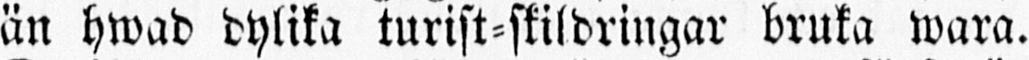än hwad dylika turist-skildringar bruka wara.
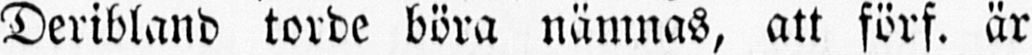Deribland torde böra nämnas, att förf. är
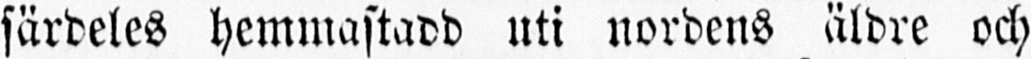särdeles hemmastadd uti nordens äldre och
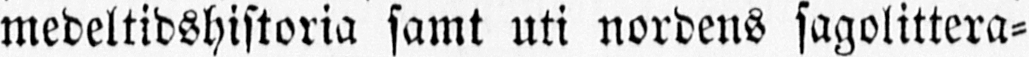medeltidshistoria samt uti nordens sagolittera-
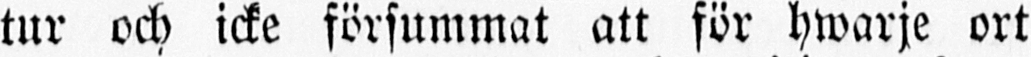tur och icke försummat att för hwarje ort
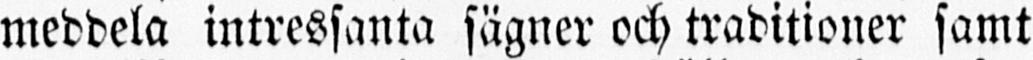meddela intressanta sägner och traditioner samt
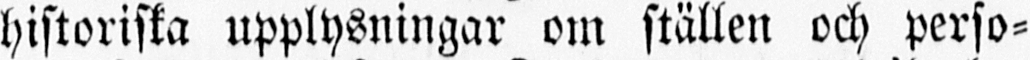historiska upplysningar om ställen och perso-
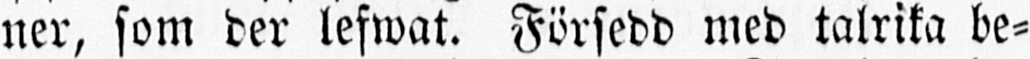ner, som der lefwat. Försedd med talrika be-
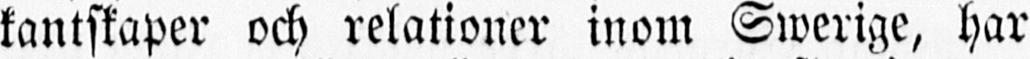kantskaper och relationer inom Swerige, har
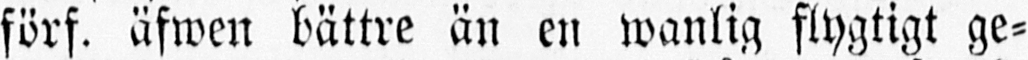förf. äfwen bättre än en wanlig flygtigt ge-
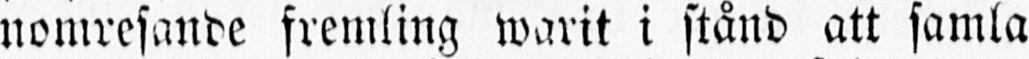nomresande fremling warit i stånd att samla
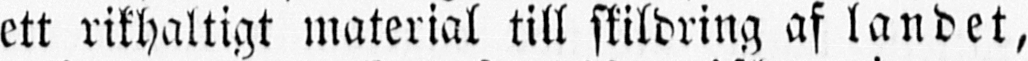ett rikhaltigt material till skildring af landet,
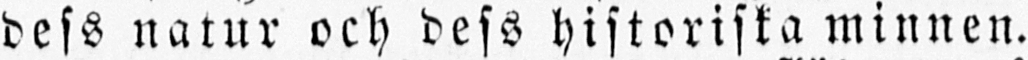dess natur och dess historiska minnen.
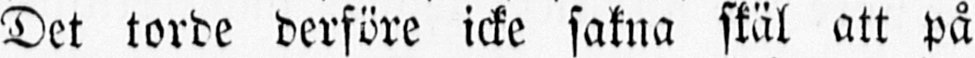Det torde derföre icke sakna skäl att på
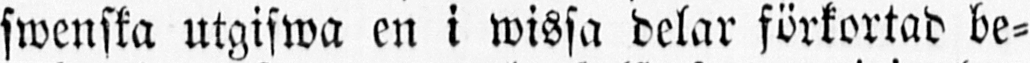swenska utgifwa en i wissa delar förkortad be-
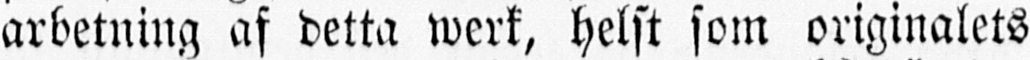arbetning af detta werk, helst som originalets
